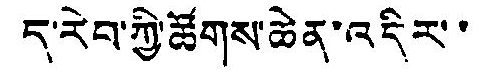ད་རེབ་ཀྱི་ཚོགས་ཆེན་འདིར་་
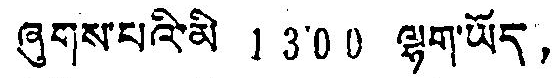ཞུགས་པའི་མི 1300 ལྷག་ཡོད，
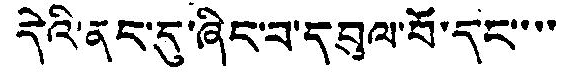དེའི་ནང་དུ་ཞིང་བ་དབུལ་བོ་དང་་་་
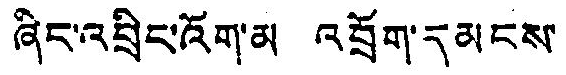ཞིང་འབྲིང་འོག་མ འབྲོག་དམངས་
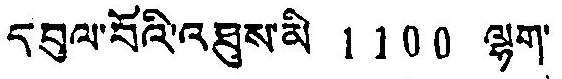དབུལ་བོའི་འཐུས་མི 1100 ལྷག་
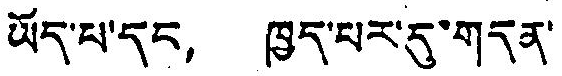ཡོད་པ་དང，ཁྱད་པར་དུ་གདན་
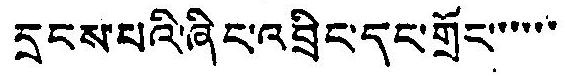དྲངས་པའི་ཞིང་འབྲིང་དང་གྲོང་་་་་་
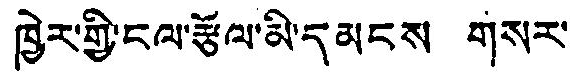ཁྱེར་གྱི་ངལ་རྩོལ་མི་དམངས གསར་
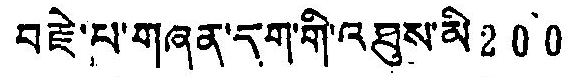བརྗེ་པ་གཞན་དག་གི་འཐུས་མི200
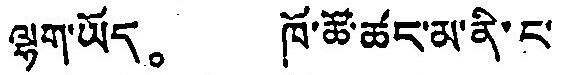ལྷག་ཡོད。 ཁོ་ཚོ་ཚང་མ་ནི་ང་
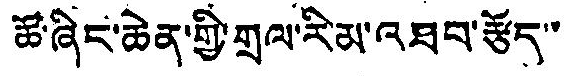ཚོ་ཞིང་ཆེན་གྱི་གྲལ་རིམ་འཐབ་རྩོད་་
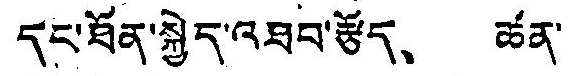དང་ཐོན་སྐྱེད་འཐབ་རྩོད、 ཚན་
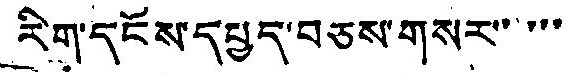རིག་དངོས་དཔྱད་བཅས་གསར་་་་་
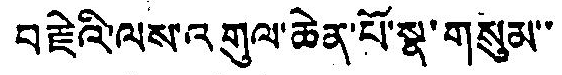བརྗེའི་ལས་འགུལ་ཆེན་པོ་སྣ་གསུམ་་
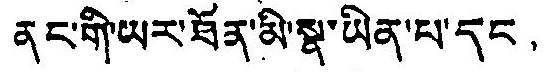ནང་གི་ཡར་ཐོན་མི་སྣ་ཡིན་པ་དང，
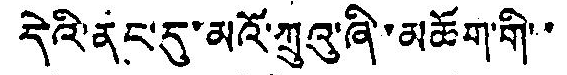དེའི་ནང་དུ་མའོ་ཀྲུའུ་ཞི་མཆོག་གི་་
